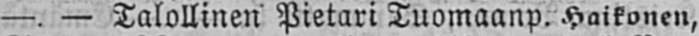—. — Talollinen Pietari Tuomaanp. Haikonen,
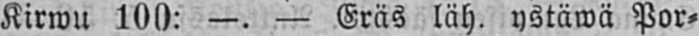Kirwu 100: —. — Eräs läh. ystäwä Por-
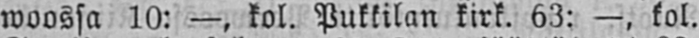woossa 10: —, kol. Pukkilan kirk. 63: —, kol.
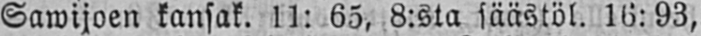Sawijoen kansak. 11: 65, 8:sta säästöl. 16:93,
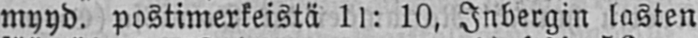myyd. postimerkeistä 11: 10, Inbergin lasten
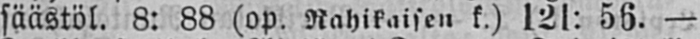säästöl. 8: 88 (op. Rahikaisen k.) 121: 56. —
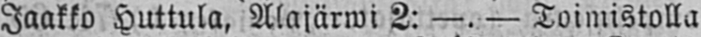Jaakko Huttula, Alajärwi 2: —. — Toimistolla
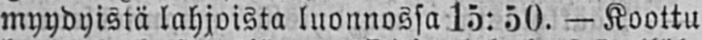myydyistä lahjoista luonnossa 15: 50. — Koottu
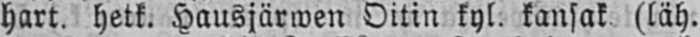hart. hetk. Hausjärwen Oitin kyl. kansak (läh.
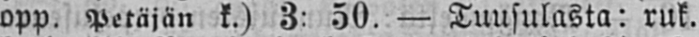opp. Petäjän k.) 3: 50. — Tuusulasta: ruk.
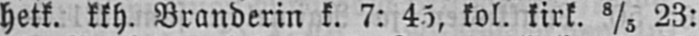hetk. kkh. Branderin k. 7: 45, kol. kirk. 8/5 23:
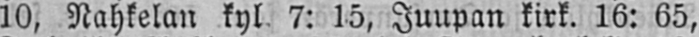10, Nahkelan kyl 7: 15, Juupan kirk. 16: 65,
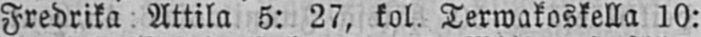Fredrika Attila 5: 27, kol. Terwakoskella 10:
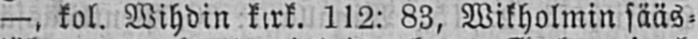—, kol. Wihdin kirk. 112: 83, Wikholmin sääs-
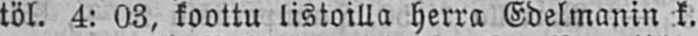töl. 4: 03, koottu listoilla herra Edelmanin k.
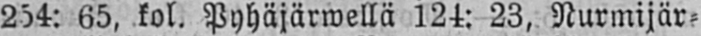254: 65, kol. Pyhäjärwellä 124: 23, Nurmijär-
